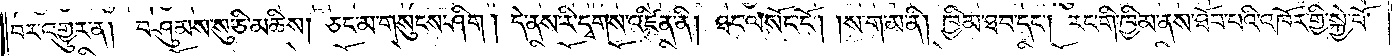བར་འགྱུར་ན། བཤུམས་སུ་ཅི་མཆིས། ཅང་མ་གསུངས་ཤིག། དེ་ནས་རི་དྭགས་འཛིན་ནི། ཐང་ལ་སོང་ངོ༌། །ས་ག་མ་ནི། ཁྱིམ་ཐབ་དང༌། རང་གི་ཁྱིམ་ནས་ཐོབ་པའི་འཁོར་གྱི་སྐྱེ་བོ་
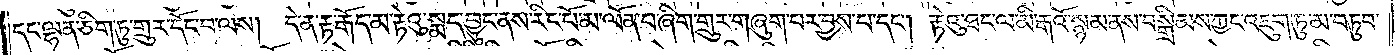དང་ལྷན་ཅིག་ཏུ་གྲུར་དོང་བ་ལས། དེ་ན་རྒོད་མ་རྟེའུ་སྨད་བྱུང་ནས་རིང་པོ་མ་ལོན་པ་ཞིག་གྲུར་གཞུག་པར་བྱས་པ་དང༌། རྟེའུ་ཐང་ལ་མི་རྒའོ་སྙམ་ནས་བསྒྲིམས་ཀྱང་འཇུག་ཏུ་མ་བཏུབ་
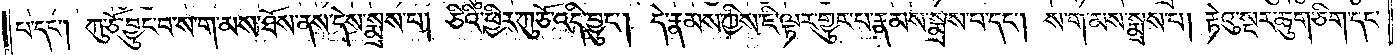པ་དང༌། ཀུ་ཅོ་བྱུང་བ་ས་ག་མས་ཐོས་ནས་དེས་སྨྲས་པ། ཅིའི་ཕྱིར་ཀུ་ཅོ་འདི་བྱུང༌། དེ་རྣམས་ཀྱིས་ཇི་ལྟར་གྱུར་པ་རྣམས་སྨྲས་པ་དང༌། ས་ག་མས་སྨྲས་པ། རྟེའུ་སྔར་ཆུ་གཅིག་དང་
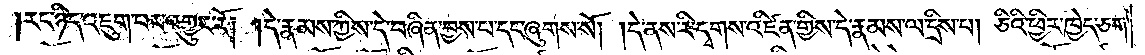རང་ཉིད་འཇུག་པར་འགྱུར་རོ། །དེ་རྣམས་ཀྱིས་དེ་བཞིན་བྱས་པ་དང་ཞུགས་སོ། །དེ་ནས་རི་དྭགས་འཛིན་གྱིས་དེ་རྣམས་ལ་དྲིས་པ། ཅིའི་ཕྱིར་ཁྱེད་ཅག་
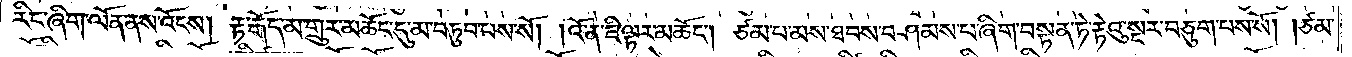རིང་ཞིག་ལོན་ནས་འོངས། རྟ་རྒོད་མ་གྲུར་མཆོང་དུ་མ་བཏུབ་པས་སོ། །འོ་ན་ཇི་ལྟར་མཆོང༌། ཙམ་པ་མས་ཐབས་བཤམས་པ་ཞིག་བསྟན་ཏེ་རྟེའུ་སྔར་བཅུག་པས་སོ། །ཙམ་
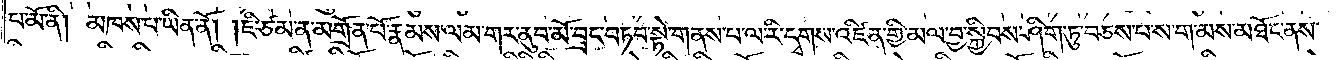པ་མོ་ནི། མཁས་པ་ཡིན་ནོ། །ཇི་ཙམ་ན་མགྲོན་པོ་རྣམས་ལམ་གར་ནུབ་མོ་བྲང་བཏབ་སྟེ་གནས་པ་ལ་རི་དྭགས་འཛིན་གྱི་མལ་བྱ་སྐྱིབས་ཤིག་ཏུ་བཅས་པ་ས་ག་མས་མཐོང་ནས་
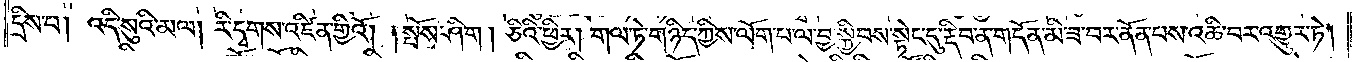དྲིས་པ། འདི་སུའི་མལ། རི་དྭགས་འཛིན་གྱིའོ། །སྤོས་ཤིག། ཅིའི་ཕྱིར། གལ་ཏེ་གཉིད་ཀྱིས་ལོག་པ་ལ་བྱ་སྐྱིབས་སྟེང་དུ་རྡིབ་ན་གདོན་མི་ཟ་བར་ནོན་པས་འཆི་བར་འགྱུར་ཏེ།
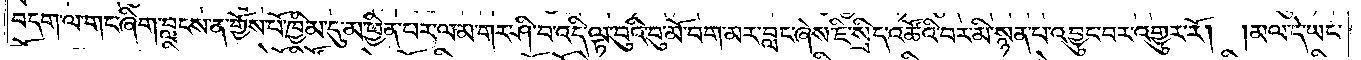བདག་ལ་གང་ཞིག་བླངས་ན་གྱོས་པོ་ཁྱིམ་དུ་མ་ཕྱིན་པར་ལམ་གར་ཤི་བ་འདི་ལྟ་བུའི་བུ་མོ་བག་མར་བླང་ཞེས་ཇི་སྲིད་འཚོའི་བར་མི་སྙན་པ་འབྱུང་བར་འགྱུར་རོ། །མལ་དེ་ཡང་
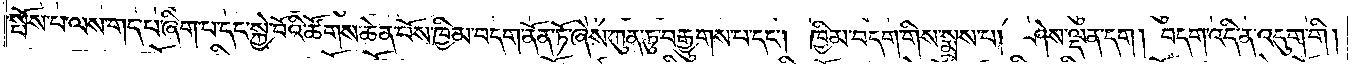སྤོས་པ་ལས་གད་པ་ཞིག་པ་དང་སྐྱེ་བོའི་ཚོགས་ཆེན་པོས་ཁྱིམ་བདག་ནོན་ཏོ་ཞེས་ཀུན་ཏུ་བརྒྱུགས་པ་དང༌། ཁྱིམ་བདག་གིས་སྨྲས་པ། ཤེས་ལྡན་དག། བདག་འདི་ན་འདུག་གི།
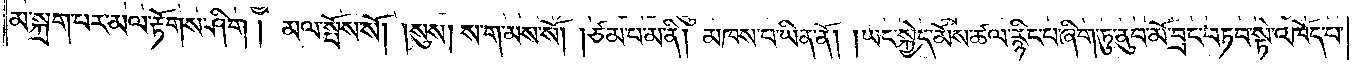མ་སྐྲག་པར་མལ་རྟོགས་ཤིག། མལ་སྤོས་སོ། །སུས། ས་ག་མས་སོ། །ཙམ་པ་མ་ནི། མཁས་པ་ཡིན་ནོ། །ཡང་སྐྱེད་མོས་ཚལ་རྙིང་པ་ཞིག་ཏུ་ནུབ་མོ་བྲང་བཏབ་སྟེ་འཁོད་པ་
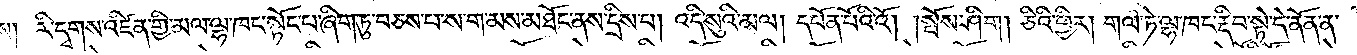ལས། རི་དྭགས་འཛིན་གྱི་མལ་ལྷ་ཁང་སྟོང་པ་ཞིག་ཏུ་བཅས་པ་ས་ག་མས་མཐོང་ནས་དྲིས་པ། འདི་སུའི་མལ། དཔོན་པོའི་འོ། །སྤོས་ཤིག། ཅིའི་ཕྱིར། གལ་ཏེ་ལྷ་ཁང་རྡིབ་སྟེ་དེ་ནོན་ན་
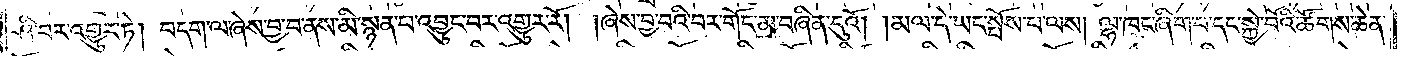ཤི་བར་འགྱུར་ཏེ། བདག་ལ་ཞེས་བྱ་བ་ནས་མི་སྙན་པ་འབྱུང་བར་འགྱུར་རོ། །ཞེས་བྱ་བའི་གོང་མ་བཞིན་དུའོ། །མལ་དེ་ཡང་སྤོས་པ་ལས། ལྷ་ཁང་ཞིག་པ་དང་སྐྱེ་བོའི་ཚོགས་ཆེན་
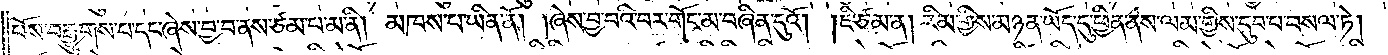པོས་བརྒྱུགས་པ་དང་ཞེས་བྱ་བ་ནས་ཙམ་པ་མ་ནི། མཁས་པ་ཡིན་ནོ། །ཞེས་བྱ་བའི་བར་གོང་མ་བཞིན་དུའོ། །ཇི་ཙམ་ན། རིམ་གྱིས་མཉན་ཡོད་དུ་ཕྱིན་ནས་ལམ་གྱིས་དུབ་པ་བསལ་ཏེ།
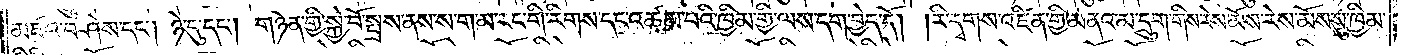མཛའ་བཤེས་དང༌། ཉེ་དུ་དང༌། གཉེན་གྱི་སྐྱེ་བོ་སྤྲས་ནས་ས་ག་མ་རང་གི་རིགས་དང་འཚམ་པའི་ཁྱིམ་གྱི་ལས་དག་བྱེད་དོ། །རི་དྭགས་འཛིན་གྱི་མནའ་མ་དྲུག་གིས་རེས་མོས་རེས་མོས་སུ་ཁྱིམ་
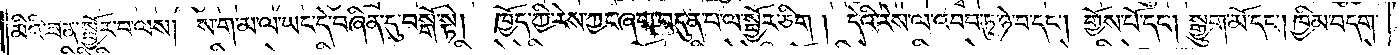མིའི་ཟན་སྦྱོར་བ་ལས། ས་ག་མ་ལ་ཡང་དེ་བཞིན་དུ་བསྒོ་སྟེ། ཁྱོད་ཀྱི་རེས་ཀྱང་ཞག་བདུན་པ་ལ་སྦྱོར་ཅིག། དེའི་རེས་ལ་འབབ་ཏུ་ཉེ་བ་དང༌། གྱོས་པོ་དང༌། སྒྱུག་མོ་དང༌། ཁྱིམ་བདག་
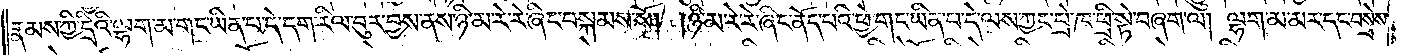རྣམས་ཀྱི་དྲིའི་ལྷག་མ་གང་ཡིན་པ་དེ་དག་རིལ་བུར་བྱས་ནས་ཉི་མ་རེ་རེ་ཞིང་བསྐམས་སོ། །ཉི་མ་རེ་རེ་ཞིང་ནོད་པའི་ཕྱེ་གང་ཡིན་པ་དེ་ལས་ཀྱང་པྲེ་ཁ་ཕྲི་སྟེ་བཞག་ལ། ལྷག་མ་མར་དང་བསྲེས་
